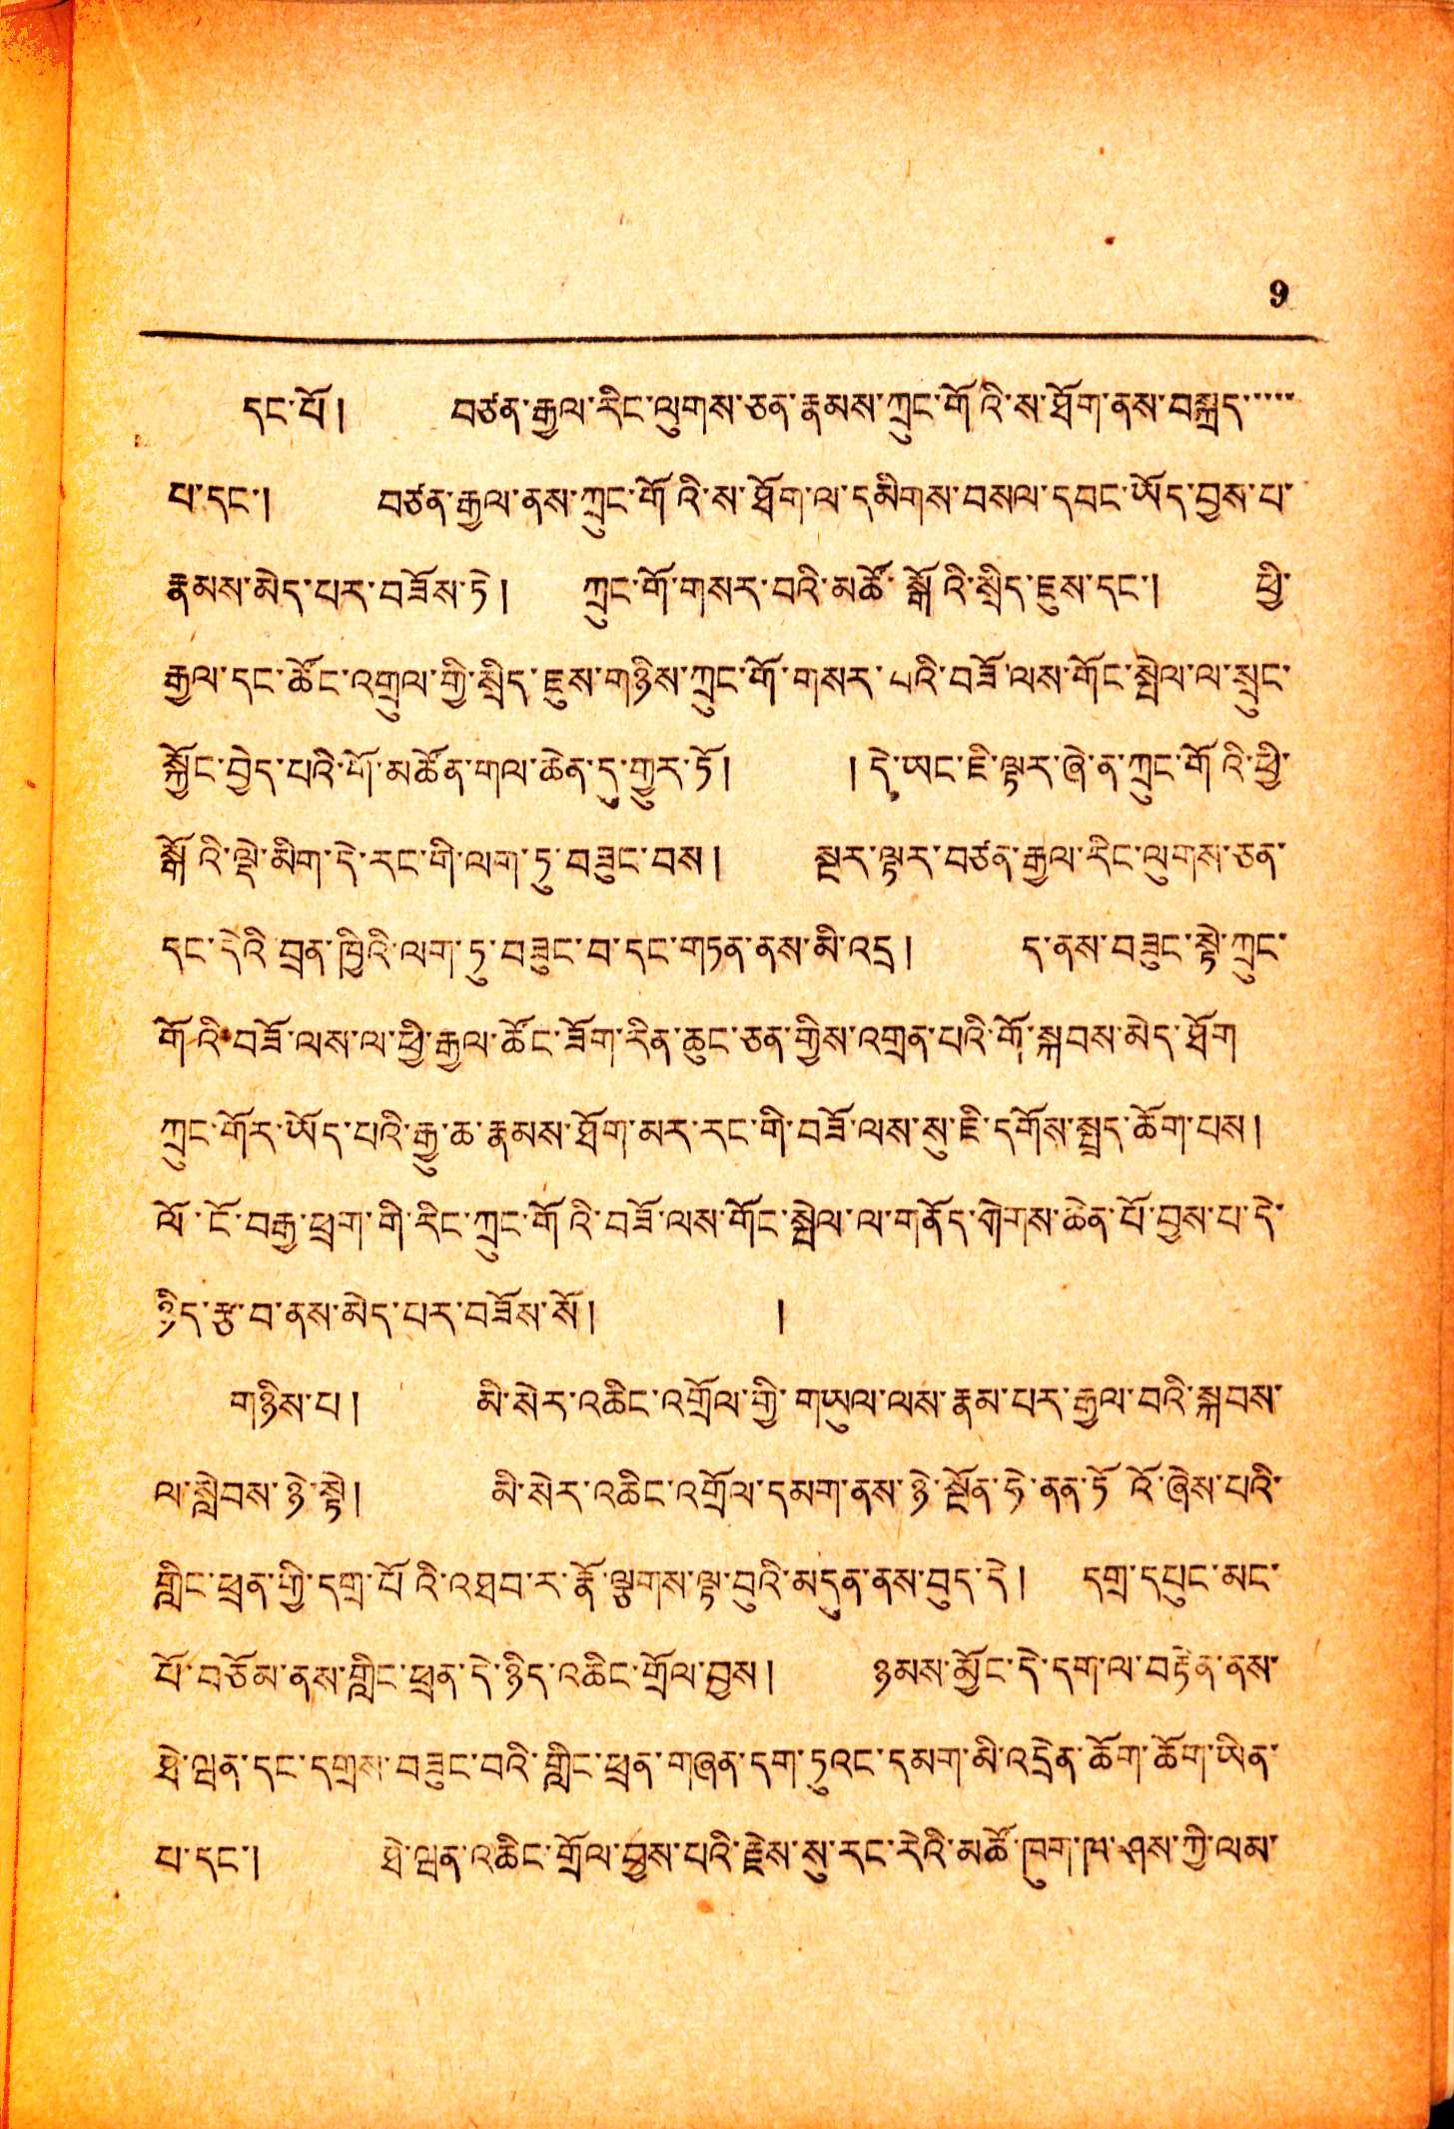9
དང་པོ། བཙན་རྒྱལ་རིང་ལུགས་ཅན་རྣམས་ཀྲུང་གོའི་ས་ཐོག་ནས་བསྐྲད་་་་་
པ་དང་། བཙན་རྒྱལ་ནས་ཀྲུང་གོའི་ས་ཐོག་ལ་དམིགས་བསལ་དབང་ཡོད་བྱས་པ་
རྣམས་མེད་པར་བཟོས་ཏེ། ཀྲུང་གོ་གསར་བའི་མཚོ་སྒོའི་སྲིད་ཇུས་དང་། ཕྱི་
རྒྱ་དང་ཚོང་འགྲུལ་གྱི་སྲིད་ཇུས་གཉིས་ཀྲུང་གོ་གསར་པའི་བཟོ་ལས་གོང་སྤེལ་ལ་སྲུང་
སྐྱོང་བྱེད་པའི་གོ་མཚོན་གལ་ཆེན་དུ་གྱུར་ཏོ། ། དེ་ཡང་ཇི་ལྟར་ཞེ་ན་ཀྲུང་གོའི་ཕྱི་
སྒོའི་ལྡེ་མིག་དེ་རང་གི་ལག་ཏུ་བཟུང་བས། སྡར་ལྟར་བཙན་རྒྱལ་རིང་ལུགས་ཅན་
དང་དེའི་བྲན་ཁྱིའི་ལག་ཏུ་བཟུང་བ་དང་གཏན་ནས་མི་འདྲ ། ད་ནས་བཟུང་སྟེ་ཀྲུང་
གོའི་བཟོ་ལས་ལ་ཕྱི་རྒྱལ་ཚོང་ཟོག་རིན་ཆུང་ཅན་གྱིས་འགྲན་པའི་གོ་སྐབས་མེད་ཐོག
ཀྲུང་གོར་ཡོད་པའི་རྒྱུ་ཆ་རྣམས་ཐོག་མར་རང་གི་བཟོ་ལས་སུ་ཇི་དགོས་སྤྲད་ཆོག་པས།
ལོ་ངོ་བརྒྱ་ཕྲག་གྱི་རིང་ཀྲུང་གོའི་བཟོ་ལས་གོང་སྤེལ་ལ་གནོད་གེགས་ཆེན་པོ་བས་པ་དེ་
ཉིད་རྩ་བ་ནས་མེད་པར་བཟོས་སོ། །
གཉིས་པ། མི་སེར་འཆིང་འགྲོལ་གྱི་གཡུལ་ལས་རྣམ་པར་རྒྱལ་བའི་སྐབས་
ལ་སླེབས་ཉེ་སྟེ། མི་སེར་འཆིང་འགྲོལ་དམག་ནས་ཉེ་སྔོན་ཧེ་ནན་ཏོའོ་ཞེས་པའི་
གླིང་ཕྲན་གྱི་དགྲ་པོའི་འཐབ་ར་རྣོ་ལྕགས་ལྟ་བུའི་མདུན་ནས་བུད་དེ། དགྲ་དཔུང་མང་
པོ་བཅོམ་ནས་གླིང་ཕྲན་དེ་ཉིད་འཆིང་གྲོལ་བྱས། ཉམམ་མྱོང་དེ་དག་ལ་བརྟེན་ནས་
ཐེ་ཝན་དང་དགྲས་བཟུང་བའི་གླིང་ཕྲན་གཞན་དག་ཏུའང་དམག་མི་འདྲེན་ཆོག་ཆོག་ཡིན་
པ་དང་། ཐེ་ཝན་འཆིང་གྲོལ་བྱས་པའི་རྗེས་སུ་རང་རེའི་མཚོ་ཁུག་ཁ་ཤས་ཀྱི་ལམ་
